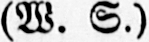(W. S.)
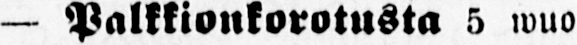— Palkkionkorotusta 5 wuo-
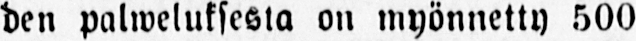den palweluksesta on myönnetty 500
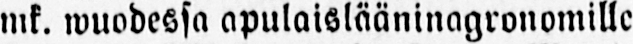mk. wuodessa apulaislääninagronomille
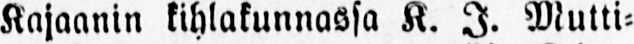Kajaanin kihlakunnassa K. I. Mutti-
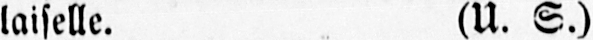laiselle. (U. S.)
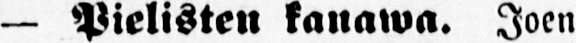— Pielisten kanawa. Joen
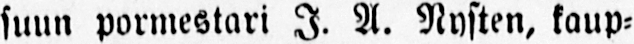suun pormestari I. A. Nysten, kaup-
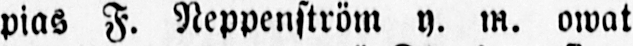pias F. Neppenström y. m. owat
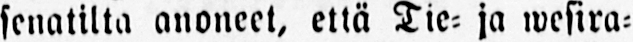senatilta anoneet, että Tie- ja wesira-
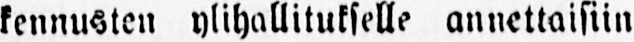kennusten ylihallitukselle annettaisiin
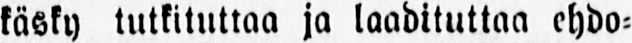käsky tutkituttaa ja laadituttaa ehdo-
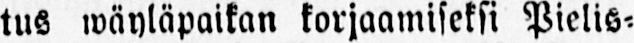tus wäyläpaikan korjaamiseksi Pielis-
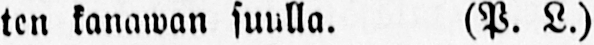ten kanawan suulla. (P. L.)
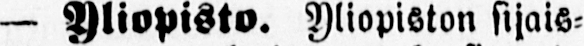— Yliopisto. Yliopiston sijais-
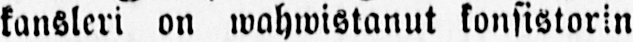kansleri on wahwistanut konsistorin
